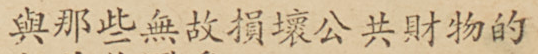與那些無故損壞公共財物的
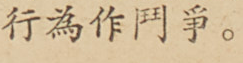行為作鬥爭。
